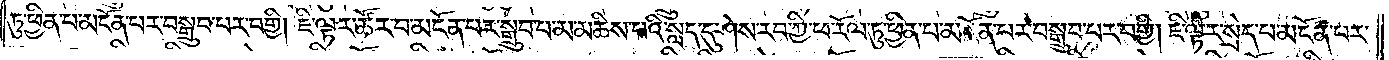ཏུ་ཕྱིན་པ་མངོན་པར་བསྒྲུབ་པར་བགྱི། ཇི་ལྟར་ཚོར་བ་མངོན་པར་སྒྲུབ་པ་མ་མཆིས་པའི་སླད་དུ་ཤེས་རབ་ཀྱི་ཕ་རོལ་ཏུ་ཕྱི་པ་མངོན་པར་བསྒྲུབ་པར་བགྱི། ཇི་ལྟར་སྲིད་པ་མངོན་པར་
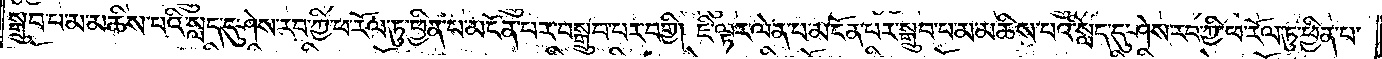སྒྲུབ་པ་མ་མཆིས་པའི་སླད་དུ་ཤེས་རབ་ཀྱི་ཕ་རོལ་ཏུ་ཕྱིན་པ་མངོན་པར་བསྒྲུབ་པར་བགྱི། ཇི་ལྟར་ལེན་པ་མངོན་པར་སྒྲུབ་པ་མ་མཆིས་པའི་སླད་དུ་ཤེས་རབ་ཀྱི་ཕ་རོལ་ཏུ་ཕྱིན་པ་
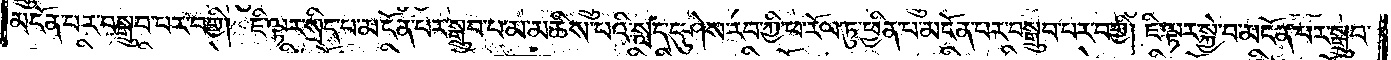མངོན་པར་བསྒྲུབ་པར་བགྱི། ཇི་ལྟར་སྲིད་པ་མངོན་པར་སྒྲུབ་པ་མ་མཆིས་པའི་སླད་དུ་ཤེས་རབ་ཀྱི་ཕ་རོལ་ཏུ་ཕྱིན་པ་མངོན་པར་བསྒྲུབ་པར་བགྱི། ཇི་ལྟར་སྐྱེ་བ་མངོན་པར་སྒྲུབ་
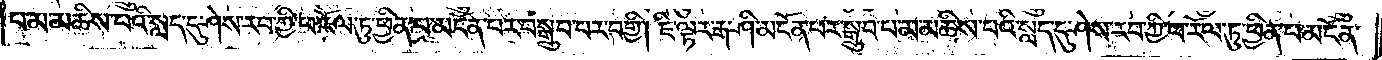པ་མ་མཆིས་པའི་སླད་དུ་ཤེས་རབ་ཀྱི་ཕ་རོལ་ཏུ་ཕྱིན་པ་མངོན་པར་བསྒྲུབ་པར་བགྱི། ཇི་ལྟར་རྒ་ཤི་མངོན་པར་སྒྲུབ་པ་མ་མཆིས་པའི་སླད་དུ་ཤེས་རབ་ཀྱི་ཕ་རོལ་ཏུ་ཕྱིན་པ་མངོན་
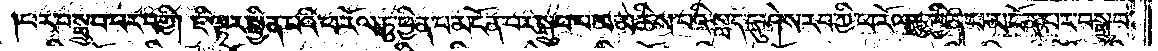པར་བསྒྲུབ་པར་བགྱི། ཇི་ལྟར་སྦྱིན་པའི་ཕ་རོལ་ཏུ་ཕྱིན་པ་མངོན་པར་སྒྲུབ་པ་མ་མཆིས་པའི་སླད་དུ་ཤེས་རབ་ཀྱི་ཕ་རོལ་ཏུ་ཕྱིན་པ་མངོན་པར་བསྒྲུབ་
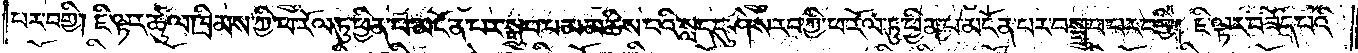པར་བགྱི། ཇི་ལྟར་ཚུལ་ཁྲིམས་ཀྱི་ཕ་རོལ་ཏུ་ཕྱིན་པ་མངོན་པར་སྒྲུབ་པ་མ་མཆིས་པའི་སླད་དུ་ཤེས་རབ་ཀྱི་ཕ་རོལ་ཏུ་ཕྱིན་པ་མངོན་པར་བསྒྲུབ་པར་བགྱི། ཇི་ལྟར་བཟོད་པའི་
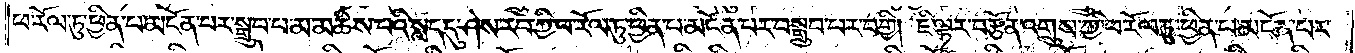ཕ་རོལ་ཏུ་ཕྱིན་པ་མངོན་པར་སྒྲུབ་པ་མ་མཆིས་པའི་སླད་དུ་ཤེས་རབ་ཀྱི་ཕ་རོལ་ཏུ་ཕྱིན་པ་མངོན་པར་བསྒྲུབ་པར་བགྱི། ཇི་ལྟར་བརྩོན་འགྲུས་ཀྱི་ཕ་རོལ་ཏུ་ཕྱིན་པ་མངོན་པར་
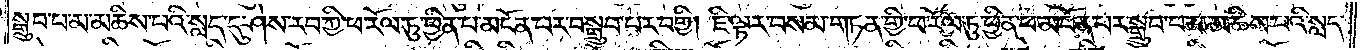སྒྲུབ་པ་མ་མཆིས་པའི་སླད་དུ་ཤེས་རབ་ཀྱི་ཕ་རོལ་ཏུ་ཕྱིན་པ་མངོན་པར་བསྒྲུབ་པར་བགྱི། ཇི་ལྟར་བསམ་གཏན་གྱི་ཕ་རོལ་ཏུ་ཕྱིན་པ་མངོན་པར་སྒྲུབ་པ་མ་མཆིས་པའི་སླད་
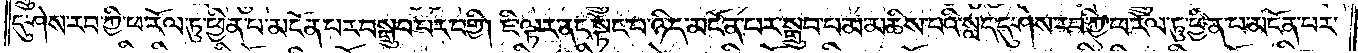དུ་ཤེས་རབ་ཀྱི་ཕ་རོལ་ཏུ་ཕྱིན་པ་མངོན་པར་བསྒྲུབ་པར་བགྱི། ཇི་ལྟར་ནང་སྟོང་པ་ཉིད་མངོན་པར་སྒྲུབ་པ་མ་མཆིས་པའི་སླད་དུ་ཤེས་རབ་ཀྱི་ཕ་རོལ་ཏུ་ཕྱིན་པ་མངོན་པར་
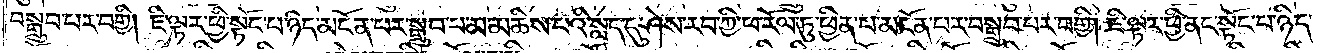བསྒྲུབ་པར་བགྱི། ཇི་ལྟར་ཕྱི་སྟོང་པ་ཉིད་མངོན་པར་སྒྲུབ་པ་མ་མཆིས་པའི་སླད་དུ་ཤེས་རབ་ཀྱི་ཕ་རོལ་ཏུ་ཕྱིན་པ་མངོན་པར་བསྒྲུབ་པར་བགྱི། ཇི་ལྟར་ཕྱི་ནང་སྟོང་པ་ཉིད་
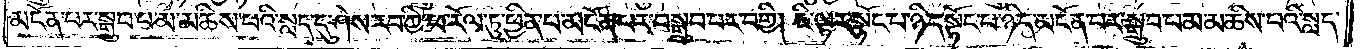མངོན་པར་སྒྲུབ་པ་མ་མཆིས་པའི་སླད་དུ་ཤེས་རབ་ཀྱི་ཕ་རོལ་ཏུ་ཕྱིན་པ་མངོན་པར་བསྒྲུབ་པར་བགྱི། ཇི་ལྟར་སྟོང་པ་ཉིད་སྟོང་པ་ཉིད་མངོན་པར་སྒྲུབ་པ་མ་མཆིས་པའི་སླད་
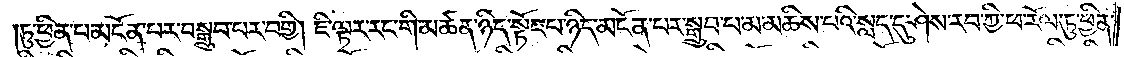ཏུ་ཕྱིན་པ་མངོན་པར་བསྒྲུབ་པར་བགྱི། ཇི་ལྟར་རང་གི་མཚན་ཉིད་སྟོང་པ་ཉིད་མངོན་པར་སྒྲུབ་པ་མ་མཆིས་པའི་སླད་དུ་ཤེས་རབ་ཀྱི་ཕ་རོལ་ཏུ་ཕྱིན་
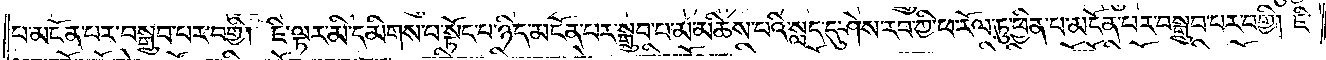པ་མངོན་པར་བསྒྲུབ་པར་བགྱི། ཇི་ལྟར་མི་དམིགས་པ་སྟོང་པ་ཉིད་མངོན་པར་སྒྲུབ་པ་མ་མཆིས་པའི་སླད་དུ་ཤེས་རབ་ཀྱི་ཕ་རོལ་ཏུ་ཕྱིན་པ་མངོན་པར་བསྒྲུབ་པར་བགྱི། ཇི་
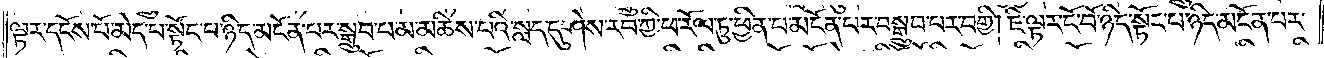ལྟར་དངོས་པོ་མེད་པ་སྟོང་པ་ཉིད་མངོན་པར་སྒྲུབ་པ་མ་མཆིས་པའི་སླད་དུ་ཤེས་རབ་ཀྱི་ཕ་རོལ་ཏུ་ཕྱིན་པ་མངོན་པར་བསྒྲུབ་པར་བགྱི། ཇི་ལྟར་ངོ་བོ་ཉིད་སྟོང་པ་ཉིད་མངོན་པར་
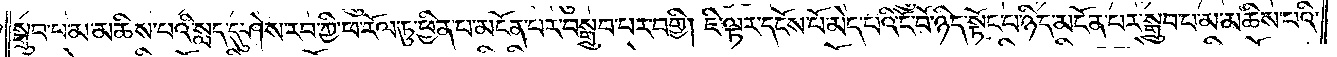སྒྲུབ་པ་མ་མཆིས་པའི་སླད་དུ་ཤེས་རབ་ཀྱི་ཕ་རོལ་ཏུ་ཕྱིན་པ་མངོན་པར་བསྒྲུབ་པར་བགྱི། ཇི་ལྟར་དངོས་པོ་མེད་པའི་ངོ་བོ་ཉིད་སྟོང་པ་ཉིད་མངོན་པར་སྒྲུབ་པ་མ་མཆིས་པའི་
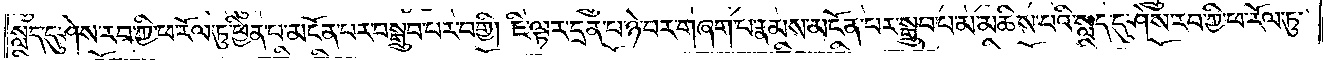སླད་དུ་ཤེས་རབ་ཀྱི་ཕ་རོལ་ཏུ་ཕྱིན་པ་མངོན་པར་བསྒྲུབ་པར་བགྱི། ཇི་ལྟར་དྲན་པ་ཉེ་བར་གཞག་པ་རྣམས་མངོན་པར་སྒྲུབ་པ་མ་མཆིས་པའི་སླད་དུ་ཤེས་རབ་ཀྱི་ཕ་རོལ་ཏུ་
